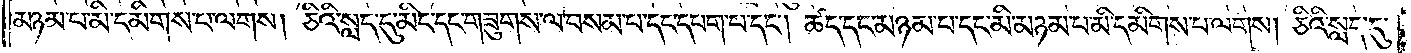མཉམ་པ་མི་དམིགས་པ་ལགས། ཅིའི་སླད་དུ་མིང་དང་གཟུགས་ལ་བསམ་པ་དང་དཔག་པ་དང༌། ཚད་དང་མཉམ་པ་དང་མི་མཉམ་པ་མི་དམིགས་པ་ལགས། ཅིའི་སླད་དུ་
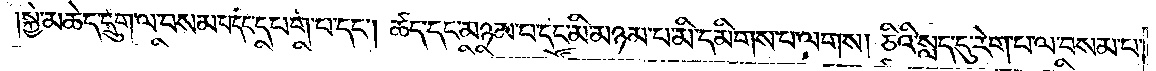སྐྱེ་མཆེད་དྲུག་ལ་བསམ་པ་དང་དཔག་པ་དང༌། ཚད་དང་མཉམ་པ་དང་མི་མཉམ་པ་མི་དམིགས་པ་ལགས། ཅིའི་སླད་དུ་རེག་པ་ལ་བསམ་པ་
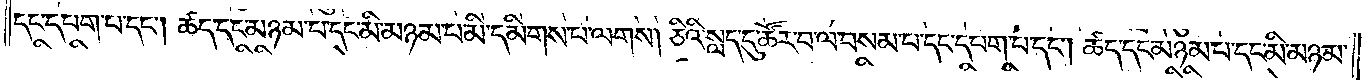དང་དཔག་པ་དང༌། ཚད་དང་མཉམ་པ་དང་མི་མཉམ་པ་མི་དམིགས་པ་ལགས། ཅིའི་སླད་དུ་ཚོར་བ་ལ་བསམ་པ་དང་དཔག་པ་དང༌། ཚད་དང་མཉམ་པ་དང་མི་མཉམ་
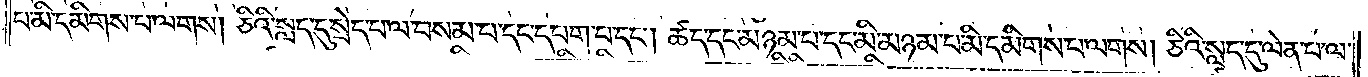པ་མི་དམིགས་པ་ལགས། ཅིའི་སླད་དུ་སྲེད་པ་ལ་བསམ་པ་དང་དཔག་པ་དང༌། ཚད་དང་མཉམ་པ་དང་མི་མཉམ་པ་མི་དམིགས་པ་ལགས། ཅིའི་སླད་དུ་ལེན་པ་ལ་
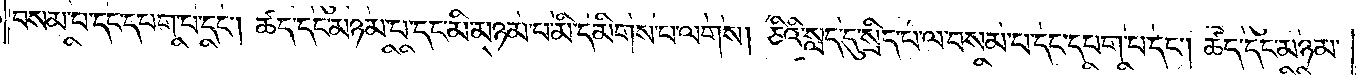བསམ་པ་དང་དཔག་པ་དང༌། ཚད་དང་མཉམ་པ་དང་མི་མཉམ་པ་མི་དམིགས་པ་ལགས། ཅིའི་སླད་དུ་སྲིད་པ་ལ་བསམ་པ་དང་དཔག་པ་དང༌། ཚད་དང་མཉམ་
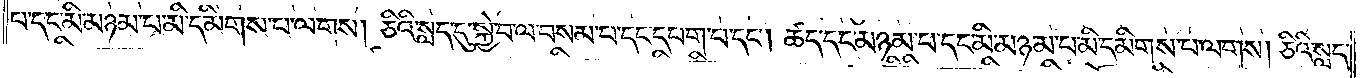པ་དང་མི་མཉམ་པ་མི་དམིགས་པ་ལགས། ཅིའི་སླད་དུ་སྐྱེ་བ་ལ་བསམ་པ་དང་དཔག་བ་དང༌། ཚད་དང་མཉམ་པ་དང་མི་མཉམ་པ་མི་དམིགས་པ་ལགས། ཅིའི་སླད་
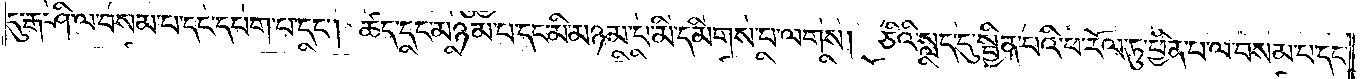དུ་རྒ་ཤི་ལ་བསམ་པ་དང་དཔག་པ་དང༌། ཚད་དང་མཉམ་པ་དང་མི་མཉམ་པ་མི་དམིགས་པ་ལགས། ཅིའི་སླད་དུ་སྦྱིན་པའི་ཕ་རོལ་ཏུ་ཕྱིན་པ་ལ་བསམ་པ་དང་
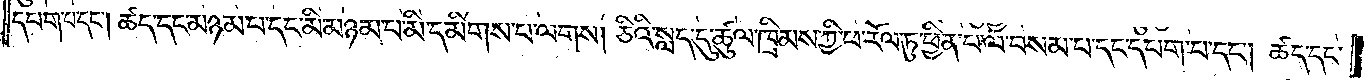དཔག་པ་དང༌། ཚད་དང་མཉམ་པ་དང་མི་མཉམ་པ་མི་དམིགས་པ་ལགས། ཅིའི་སླད་དུ་ཚུལ་ཁྲིམས་ཀྱི་ཕ་རོལ་ཏུ་ཕྱིན་པ་ལ་བསམ་པ་དང་དཔག་པ་དང༌། ཚད་དང་
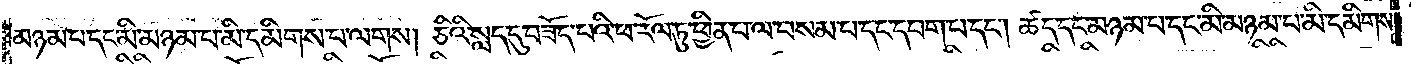མཉམ་པ་དང་མི་མཉམ་པ་མི་དམིགས་པ་ལགས། ཅིའི་སླད་དུ་བཟོད་པའི་ཕ་རོལ་ཏུ་ཕྱིན་པ་ལ་བསམ་པ་དང་དཔག་པ་དང༌། ཚད་དང་མཉམ་པ་དང་མི་མཉམ་པ་མི་དམིགས་
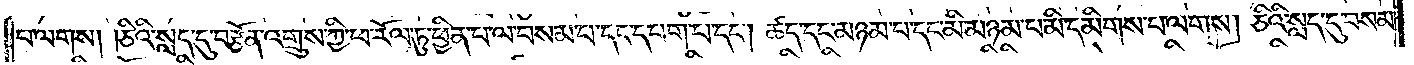པ་ལགས། ཅིའི་སླད་དུ་བརྩོན་འགྲུས་ཀྱི་ཕ་རོལ་ཏུ་ཕྱིན་པ་ལ་བསམ་པ་དང་དཔག་པ་དང༌། ཚད་དང་མཉམ་པ་དང་མི་མཉམ་པ་མི་དམིགས་པ་ལགས། ཅིའི་སླད་དུ་བསམ་
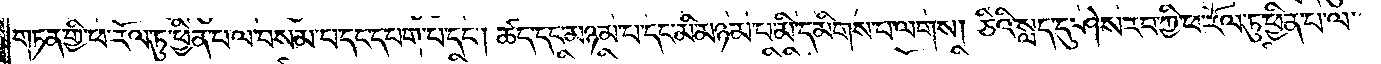གཏན་གྱི་ཕ་རོལ་ཏུ་ཕྱིན་པ་ལ་བསམ་པ་དང་དཔག་པ་དང༌། ཚད་དང་མཉམ་པ་དང་མི་མཉམ་པ་མི་དམིགས་པ་ལགས། ཅིའི་སླད་དུ་ཤེས་རབ་ཀྱི་ཕ་རོལ་ཏུ་ཕྱིན་པ་ལ་
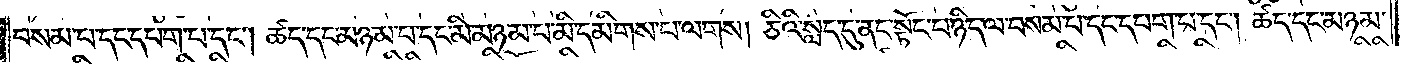བསམ་པ་དང་དཔག་པ་དང༌། ཚད་དང་མཉམ་པ་དང་མི་མཉམ་པ་མི་དམིགས་པ་ལགས། ཅིའི་སླད་དུ་ནང་སྟོང་པ་ཉིད་ལ་བསམ་པ་དང་དཔག་པ་དང༌། ཚད་དང་མཉམ་
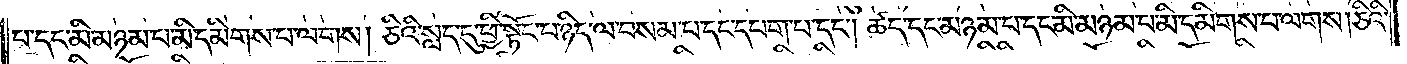པ་དང་མི་མཉམ་པ་མི་དམིགས་པ་ལགས། ཅིའི་སླད་དུ་ཕྱི་སྟོང་པ་ཉིད་ལ་བསམ་པ་དང་དཔག་པ་དང༌། ཚད་དང་མཉམ་པ་དང་མི་མཉམ་པ་མི་དམིགས་པ་ལགས། ཅིའི་
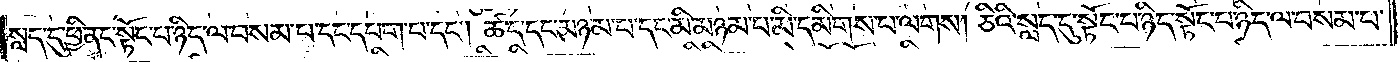སླད་དུ་ཕྱི་ནང་སྟོང་པ་ཉིད་ལ་བསམ་པ་དང་དཔག་པ་དང༌། ཚད་དང་མཉམ་པ་དང་མི་མཉམ་པ་མི་དམིགས་པ་ལགས། ཅིའི་སླད་དུ་སྟོང་པ་ཉིད་སྟོང་པ་ཉིད་ལ་བསམ་པ་
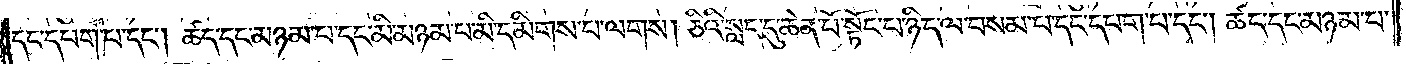དང་དཔག་པ་དང༌། ཚད་དང་མཉམ་པ་དང་མི་མཉམ་པ་མི་དམིགས་པ་ལགས། ཅིའི་སླད་དུ་ཆེན་པོ་སྟོང་པ་ཉིད་ལ་བསམ་པ་དང་དཔག་པ་དང༌། ཚད་དང་མཉམ་པ་
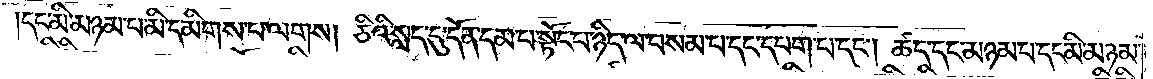དང་མི་མཉམ་པ་མི་དམིགས་པ་ལགས། ཅིའི་སླད་དུ་དོན་དམ་པ་སྟོང་པ་ཉིད་ལ་བསམ་པ་དང་དཔག་པ་དང༌། ཚད་དང་མཉམ་པ་དང་མི་མཉམ་
